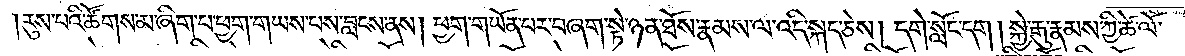རུས་པའི་ཚོགས་མ་ཞིག་པ་ཕྱག་གཡས་པས་བླངས་ནས། ཕྱག་གཡོན་པར་བཞག་སྟེ་ཉན་ཐོས་རྣམས་ལ་འདི་སྐད་ཅེས། དགེ་སློང་དག །སྐྱེ་རྒུ་རྣམས་ཀྱི་ཚེ་ལོ་
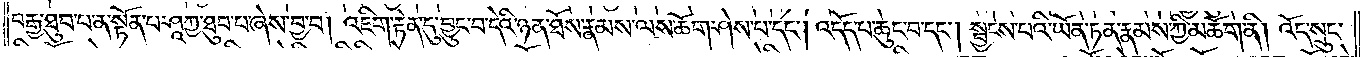བརྒྱ་ཐུབ་པ་ན་སྟོན་པ་ཤཱཀྱ་ཐུབ་པ་ཞེས་བྱ་བ། འཇིག་རྟེན་དུ་བྱུང་བ་དེའི་ཉན་ཐོས་རྣམས་ལས་ཆོག་ཤེས་པ་དང༌། འདོད་པ་ཆུང་བ་དང༌། སྦྱངས་པའི་ཡོན་ཏན་རྣམས་ཀྱི་མཆོག་ནི། འོད་སྲུང་
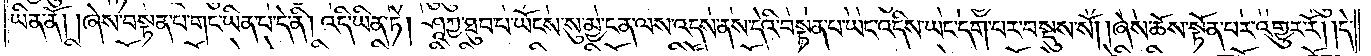ཡིན་ནོ། །ཞེས་བསྟན་པ་གང་ཡིན་པ་དེ་ནི། འདི་ཡིན་ཏེ། ཤཱཀྱ་ཐུབ་པ་ཡོངས་སུ་མྱ་ངན་ལས་འདས་ནས་དེའི་བསྟན་པ་ཡང་འདིས་ཡང་དག་པར་བསྡུས་སོ། །ཞེས་ཆོས་སྟོན་པར་འགྱུར་རོ། །དེ་
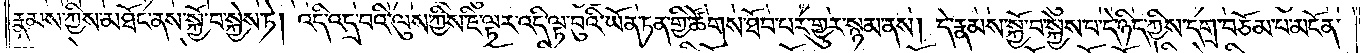རྣམས་ཀྱིས་མཐོང་ནས་སྐྱོ་བ་སྐྱེས་ཏེ། འདི་འདྲ་བའི་ལུས་ཀྱིས་ཇི་ལྟར་འདི་ལྟ་བུའི་ཡོན་ཏན་གྱི་ཚོགས་ཐོབ་པར་གྱུར་སྙམ་ནས། དེ་རྣམས་སྐྱོ་བ་སྐྱེས་པ་དེ་ཉིད་ཀྱིས་དགྲ་བཅོམ་པ་མངོན་
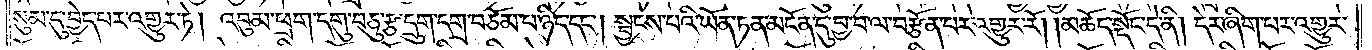སུམ་དུ་བྱེད་པར་འགྱུར་ཏེ། འབུམ་ཕྲག་དགུ་བཅུ་རྩ་དྲུག་དགྲ་བཅོམ་པ་ཉིད་དང༌། སྦྱངས་པའི་ཡོན་ཏན་མངོན་དུ་བྱ་བ་ལ་བརྩོན་པར་འགྱུར་རོ། །མཆོད་སྡོང་དེ་ནི། དེར་ཞིག་པར་འགྱུར་
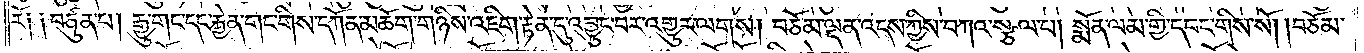རོ༑༑ བཙུན་པ། རྒྱུ་གང་དང་རྐྱེན་གང་གིས་དཀོན་མཆོག་གཉིས་འཇིག་རྟེན་དུ་འབྱུང་བར་འགྱུར་ལགས། བཅོམ་ལྡན་འདས་ཀྱིས་བཀའ་སྩལ་པ། སྨོན་ལམ་གྱི་དབང་གིས་སོ། །བཅོམ་
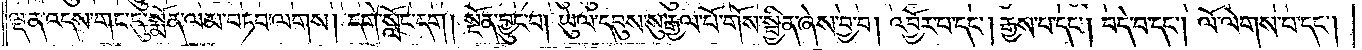ལྡན་འདས་གང་དུ་སྨོན་ལམ་བཏབ་ལགས། དགེ་སློང་དག །སྔོན་བྱུང་བ། ཡུལ་དབུས་སུ་རྒྱལ་པོ་གོས་སྦྱིན་ཞེས་བྱ་བ། འབྱོར་བ་དང༌། རྒྱས་པ་དང༌། བདེ་བ་དང༌། ལོ་ལེགས་པ་དང༌།
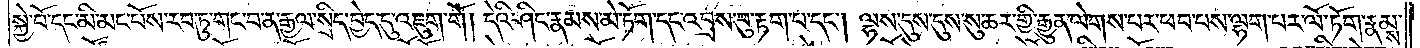སྐྱེ་བོ་དང་མི་མང་པོས་རབ་ཏུ་གང་བ་ན་རྒྱལ་སྲིད་བྱེད་དུ་འཇུག་གོ། །དེའི་ཤིང་རྣམས་མེ་ཏོག་དང་འབྲས་བུ་རྟག་པ་དང༌། ལྷས་དུས་དུས་སུ་ཆར་གྱི་རྒྱུན་ལེགས་པར་ཕབ་པས་ལྷག་པར་ལོ་ཏོག་རྣམས་
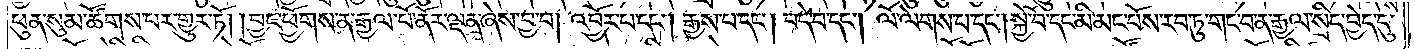ཕུན་སུམ་ཚོགས་པར་འགྱུར་ཏོ། །བྱང་ཕྱོགས་ན་རྒྱལ་པོ་ནོར་ལྡན་ཞེས་བྱ་བ། འབྱོར་པ་དང༌། རྒྱས་པ་དང༌། བདེ་བ་དང༌། ལོ་ལེགས་པ་དང༌། སྐྱེ་བོ་དང་མི་མང་པོས་རབ་ཏུ་གང་བ་ན་རྒྱལ་སྲིད་བྱེད་དུ་
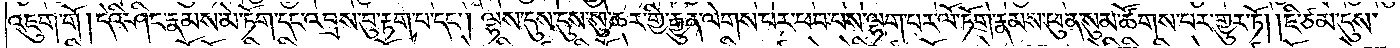འཇུག་གོ། །དེའི་ཤིང་རྣམས་མེ་ཏོག་དང་འབྲས་བུ་རྟག་པ་དང༌། ལྷས་དུས་དུས་སུ་ཆར་གྱི་རྒྱུན་ལེགས་པར་ཕབ་པས་ལྷག་པར་ལོ་ཏོག་རྣམས་ཕུན་སུམ་ཚོགས་པར་འགྱུར་ཏོ། །ཇི་ཙམ་དུས་
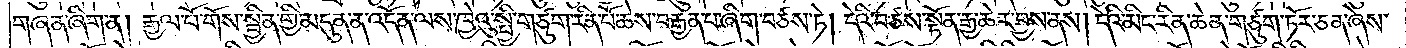གཞན་ཞིག་ན། རྒྱལ་པོ་གོས་སྦྱིན་གྱི་མདུན་ན་འདོན་ལས་ཁྱེའུ་སྤྱི་གཙུག་རིན་པོ་ཆེས་བརྒྱན་པ་ཞིག་བཙས་ཏེ། དེའི་བཙས་སྟོན་རྒྱ་ཆེར་བྱས་ནས། དེའི་མིང་རིན་ཆེན་གཙུག་ཏོར་ཅན་ཞེས་
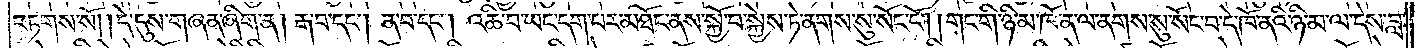བཏགས་སོ། །དེ་དུས་གཞན་ཞིག་ན། རྒ་བ་དང༌། ན་བ་དང༌། འཆི་བ་ཡང་དག་པར་མཐོང་ནས་སྐྱོ་བ་སྐྱེས་ཏེ་ནགས་སུ་སོང་ངོ༌། །གང་གི་ཉི་མ་ཁོ་ན་ལ་ནགས་སུ་སོང་བ་དེ་ཁོ་ནའི་ཉི་མ་ལ་དེས་བླ་
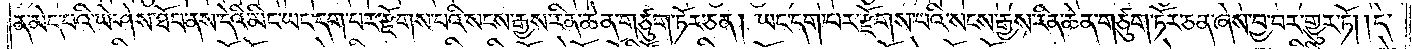ན་མེད་པའི་ཡེ་ཤེས་ཐོབ་ནས་དེའི་མིང་ཡང་དག་པར་རྫོགས་པའི་སངས་རྒྱས་རིན་ཆེན་གཙུག་ཏོར་ཅན། ཡང་དག་པར་རྫོགས་པའི་སངས་རྒྱས་རིན་ཆེན་གཙུག་ཏོར་ཅན་ཞེས་བྱ་བར་གྱུར་ཏོ། །དེ་
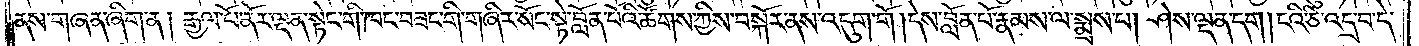ནས་གཞན་ཞིག་ན། རྒྱལ་པོ་ནོར་ལྡན་སྟེང་གི་ཁག་བཟང་གི་གཞིར་སོང་སྟེ་བློན་པོའི་ཚོགས་ཀྱིས་བསྐོར་ནས་འདུག་གོ། །དེ་བློན་པོ་རྣམས་ལ་སྨྲས་པ། ཤེས་ལྡན་དག །ངའི་ཅི་འདྲ་བ་དེ་
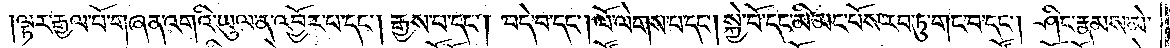ལྟར་རྒྱལ་པོ་གཞན་འགའི་ཡུལ་ན་འབྱོར་བ་དང༌། རྒྱས་པ་དང༌། བདེ་བ་དང༌། ལོ་ལེགས་པ་དང༌། སྐྱེ་བོ་དང་མི་མང་པོས་རབ་ཏུ་གང་བ་དང༌། ཤིང་རྣམས་མེ་
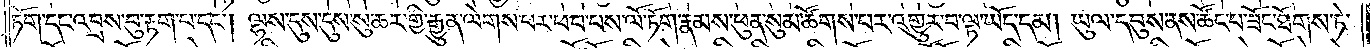ཏོག་དང་འབྲས་བུ་རྟག་པ་དང༌། ལྷས་དུས་དུས་སུ་ཆར་གྱི་རྒྱུན་ལེགས་པར་ཕབ་པས་ལོ་ཏོག་རྣམས་ཕུན་སུམ་ཚོགས་པར་འགྱུར་བ་ལྟ་ཡོད་དམ། ཡུལ་དབུས་ནས་ཚོང་པ་ཟོང་ཐོགས་ཏེ་
